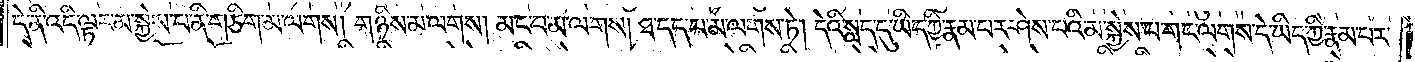དེ་ནི་འདི་ལྟར་མ་སྐྱེས་པ་ནི་གཅིག་མ་ལགས། གཉིས་མ་ལགས། མང་བ་མ་ལགས། ཐ་དད་པ་མ་ལགས་ཏེ། དེའི་སླད་དུ་ཡིད་ཀྱི་རྣམ་པར་ཤེས་པའི་མ་སྐྱེས་པ་གང་ལགས་པ་དེ་ཡིད་ཀྱི་རྣམ་པར་
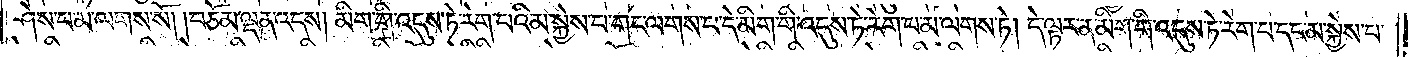ཤེས་པ་མ་ལགས་སོ། །བཅོམ་ལྡན་འདས། མིག་གི་འདུས་ཏེ་རེག་པའི་མ་སྐྱེས་པ་གང་ལགས་པ་དེ་མིག་གི་འདུས་ཏེ་རེག་པ་མ་ལགས་ཏེ། དེ་ལྟར་ན་མིག་གི་འདུས་ཏེ་རེག་པ་དང་མ་སྐྱེས་པ་
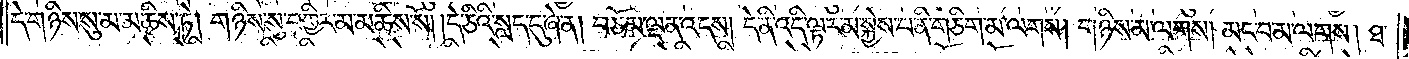དེ་གཉིས་སུ་མ་མཆིས་ཏེ། གཉིས་སུ་བགྱིར་མ་མཆིས་སོ། །དེ་ཅིའི་སླད་དུ་ཞེ་ན། བཅོམ་ལྡན་འདས། དེ་ནི་འདི་ལྟར་མ་སྐྱེས་པ་ནི་གཅིག་མ་ལགས། གཉིས་མ་ལགས། མང་བ་མ་ལགས། ཐ་
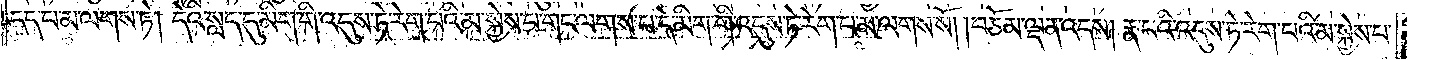དད་པ་མ་ལགས་ཏེ། དེའི་སླད་དུ་མིག་གི་འདུས་ཏེ་རེག་པའི་མ་སྐྱེས་པ་གང་ལགས་པ་དེ་མིག་གི་འདུས་ཏེ་རེག་པ་མ་ལགས་སོ། །བཅོམ་ལྡན་འདས། རྣ་བའི་འདུས་ཏེ་རེག་པའི་མ་སྐྱེས་པ་
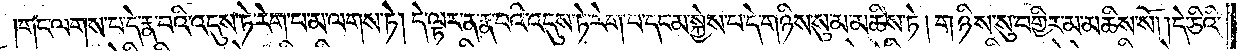གང་ལགས་པ་དེ་རྣ་བའི་འདུས་ཏེ་རེག་པ་མ་ལགས་ཏེ། དེ་ལྟར་ན་རྣ་བའི་འདུས་ཏེ་རེག་པ་དང་མ་སྐྱེས་པ་དེ་གཉིས་སུ་མ་མཆིས་ཏེ། གཉིས་སུ་བགྱིར་མ་མཆིས་སོ། །དེ་ཅིའི་
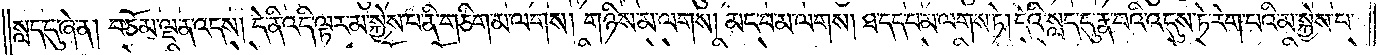སླད་དུ་ཞེ་ན། བཅོམ་ལྡན་འདས། དེ་ནི་འདི་ལྟར་མ་སྐྱེས་པ་ནི་གཅིག་མ་ལགས། གཉིས་མ་ལགས། མང་བ་མ་ལགས། ཐ་དད་པ་མ་ལགས་ཏེ། དེའི་སླད་དུ་རྣ་བའི་འདུས་ཏེ་རེག་པའི་མ་སྐྱེས་པ་
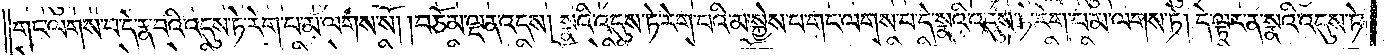གང་ལགས་པ་དེ་རྣ་བའི་འདུས་ཏེ་རེག་པ་མ་ལགས་སོ། །བཅོམ་ལྡན་འདས། སྣའི་འདུས་ཏེ་རེག་པའི་མ་སྐྱེས་པ་གང་ལགས་པ་དེ་སྣའི་འདུས་ཏེ་རེག་པ་མ་ལགས་ཏེ། དེ་ལྟར་ན་སྣའི་འདུས་ཏེ་
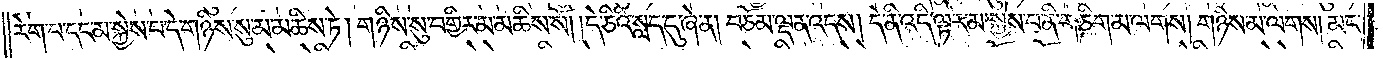རེག་པ་དང་མ་སྐྱེས་པ་དེ་གཉིས་སུ་མ་མཆིས་ཏེ། གཉིས་སུ་བགྱིར་མ་མཆིས་སོ། །དེ་ཅིའི་སླད་དུ་ཞེ་ན། བཅོམ་ལྡན་འདས། དེ་ནི་འདི་ལྟར་མ་སྐྱེས་པ་ནི་གཅིག་མ་ལགས། གཉིས་མ་ལགས། མང་
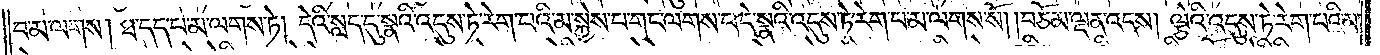བ་མ་ལགས། ཐ་དད་པ་མ་ལགས་ཏེ། དེའི་སླད་དུ་སྣའི་འདུས་ཏེ་རེག་པའི་མ་སྐྱེས་པ་གང་ལགས་པ་དེ་སྣའི་འདུས་ཏེ་རེག་པ་མ་ལགས་སོ། །བཅོམ་ལྡན་འདས། ལྕེའི་འདུས་ཏེ་རེག་པའི་མ་
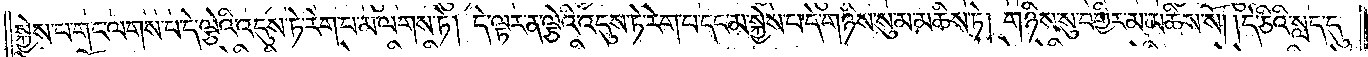སྐྱེས་པ་གང་ལགས་པ་དེ་ལྕེའི་འདུས་ཏེ་རེག་པ་མ་ལགས་ཏེ། དེ་ལྟར་ན་ལྕེའི་འདུས་ཏེ་རེག་པ་དང་མ་སྐྱེས་པ་དེ་གཉིས་སུ་མ་མཆིས་ཏེ། གཉིས་སུ་བགྱིར་མ་མཆིས་སོ། །དེ་ཅིའི་སླད་དུ་
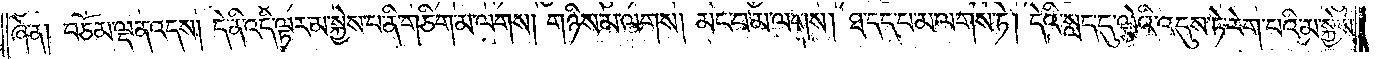ཞེ་ན། བཅོམ་ལྡན་འདས། དེ་ནི་འདི་ལྟར་མ་སྐྱེས་པ་ནི་གཅིག་མ་ལགས། གཉིས་མ་ལགས། མང་བ་མ་ལགས། ཐ་དད་པ་མ་ལགས་ཏེ། དེའི་སླད་དུ་ལྕེའི་འདུས་ཏེ་རེག་པའི་མ་སྐྱེས་
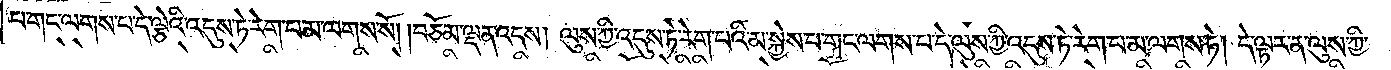པ་གང་ལགས་པ་དེ་ལྕེའི་འདུས་ཏེ་རེག་པ་མ་ལགས་སོ། །བཅོམ་ལྡན་འདས། ལུས་ཀྱི་འདུས་ཏེ་རེག་པའི་མ་སྐྱེས་པ་གང་ལགས་པ་དེ་ལུས་ཀྱི་འདུས་ཏེ་རེག་པ་མ་ལགས་ཏེ། དེ་ལྟར་ན་ལུས་ཀྱི་
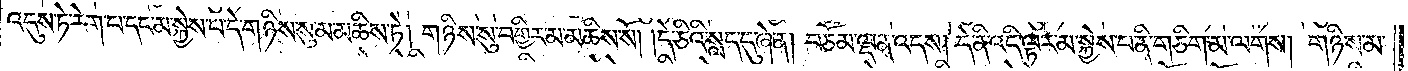འདུས་ཏེ་རེག་པ་དང་མ་སྐྱེས་པ་དེ་གཉིས་སུ་མ་མཆིས་ཏེ། གཉིས་སུ་བགྱིར་མ་མཆིས་སོ། །དེ་ཅིའི་སླད་དུ་ཞེ་ན། བཅོམ་ལྡན་འདས། དེ་ནི་འདི་ལྟར་མ་སྐྱེས་པ་ནི་གཅིག་མ་ལགས། གཉིས་མ་
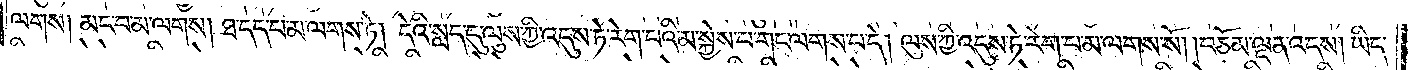ལགས། མང་བ་མ་ལགས། ཐ་དད་པ་མ་ལགས་ཏེ། དེའི་སླད་དུ་ལུས་ཀྱི་འདུས་ཏེ་རེག་པའི་མ་སྐྱེས་པ་གང་ལགས་པ་དེ། ལུས་ཀྱི་འདུས་ཏེ་རེག་པ་མ་ལགས་སོ། །བཅོམ་ལྡན་འདས། ཡིད་
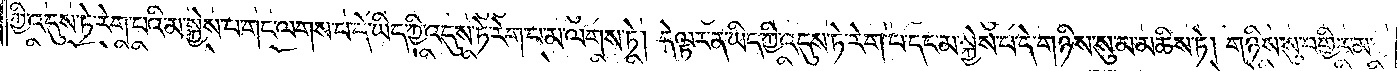ཀྱི་འདུས་ཏེ་རེག་པའི་མ་སྐྱེས་པ་གང་ལགས་པ་དེ་ཡིད་ཀྱི་འདུས་ཏེ་རེག་པ་མ་ལགས་ཏེ། དེ་ལྟར་ན་ཡིད་ཀྱི་འདུས་ཏེ་རེག་པ་དང་མ་སྐྱེས་པ་དེ་གཉིས་སུ་མ་མཆིས་ཏེ། གཉིས་སུ་བགྱིར་མ་
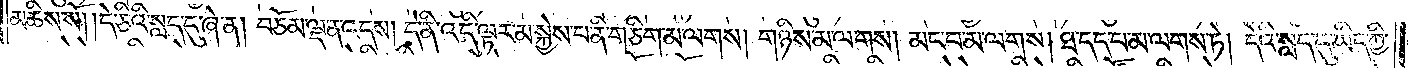མཆིས་སོ། །དེ་ཅིའི་སླད་དུ་ཞེ་ན། བཅོམ་ལྡན་འདས། དེ་ནི་འདི་ལྟར་མ་སྐྱེས་པ་ནི་གཅིག་མ་ལགས་གཉིས་མ་ལགས། མང་བ་མ་ལགས། ཐ་དད་པ་མ་ལགས་ཏེ། དེའི་སླད་དུ་ཡིད་ཀྱི་
